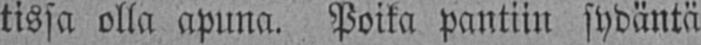tissa olla apuna. Poika pantiin sydäntä
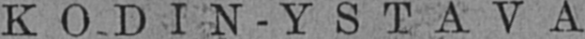KODIN-YSTÄVA
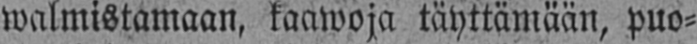walmistamään, kaawoja täyttämään, puo-
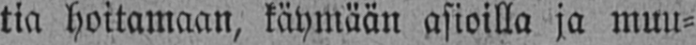tia hoitamaan, käymään asioilla ja muu-
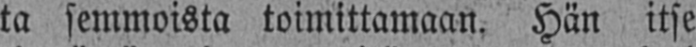ta semmoista toimittamaan. Hän itse
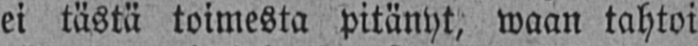ei tästä toimesta pitänyt, waan tahtoi
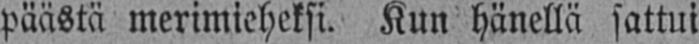päästä merimieheksi. Kun hänellä sattui
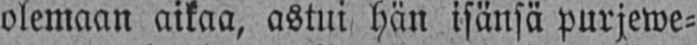olemaan aikaa, astui hän isänsä purjewe-
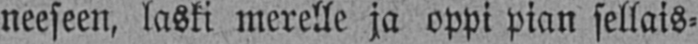neeseen, laski merelle ja oppi pian sellais-
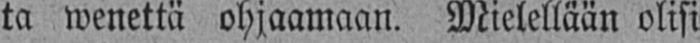ta wenettä ohjaamaan. Mielellään olisi
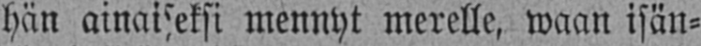hän ainaiseksi mennyt merelle, waan isän-
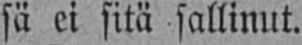sä ei sitä sallinut.
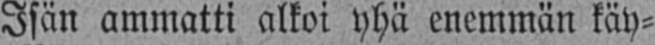Isän ammatti alkoi yhä enemmän käy-
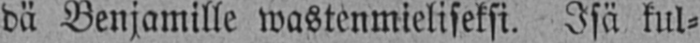dä Benjamille wastenmieliseksi. Isä kul-
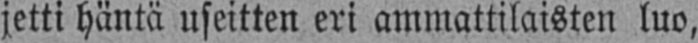jetti häntä useitten eri ammattilaisten luo,
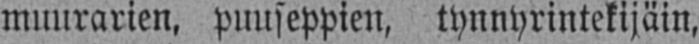muurarien, puuseppien, tynnyrintekijäin,
